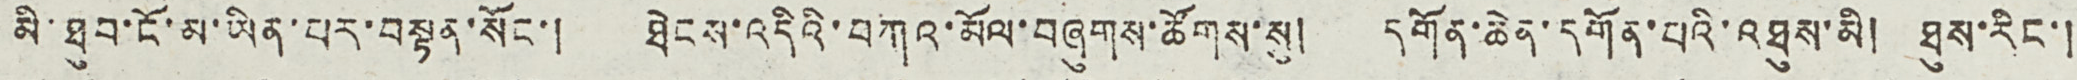མི་ཐུབ་ངོ་མ་ཡིན་པར་བསྟན་སོང་། ཐེངས་འདིའི་བཀའ་མོལ་བཞུགས་ཚོགས་སུ། དགོན་ཆེན་དགོན་པའི་འཐུས་མི། ཐུས་རིང་།
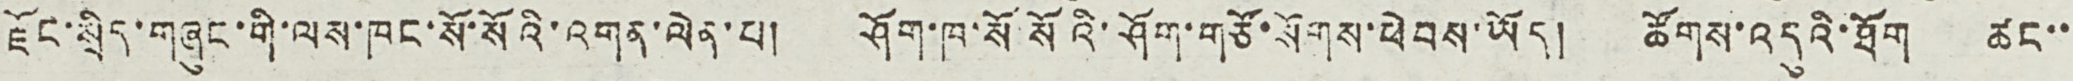རྫོང་སྲིད་གཞུང་གི་ལས་ཁང་སོ་སོའི་འགན་ལེན་པ། ཤོག་ཁ་སོ་སོའི་ཤོག་གཙོ་སོགས་ཕེབས་ཡོད། ཚོགས་འདུའི་ཐོག ཚང་་
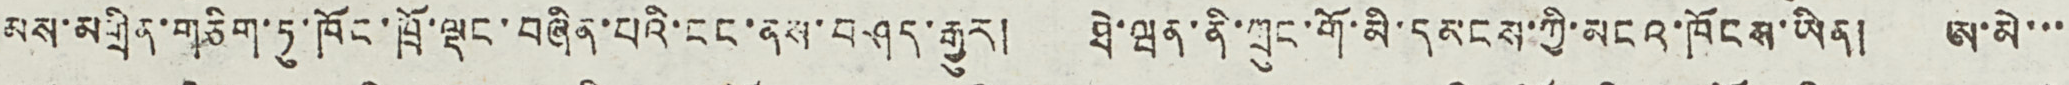མས་མགྲིན་གཅིག་ཏུ་ཁོང་ཁྲོ་ལྡང་བཞིན་པའི་ངང་ནས་བཤད་རྒྱུར། ཐེ་ཝན་ནི་ཀྲུང་གོ་མི་དམངས་ཀྱི་མངའ་ཁོངས་ཡིན། ཨ་མེ་་་
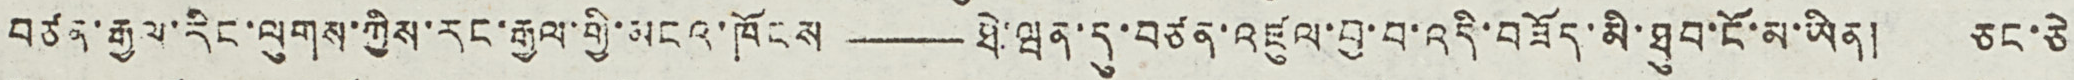བཙན་རྒྱལ་རིང་ལུགས་ཀྱིས་རང་རྒྱལ་གྱི་མངའ་ཁོངས——ཐེ་ཝན་དུ་བཙན་འཛུལ་བྱ་བ་འདི་བཟོད་མི་ཐུབ་ངོ་མ་ཡིན། ཅང་ཅེ་
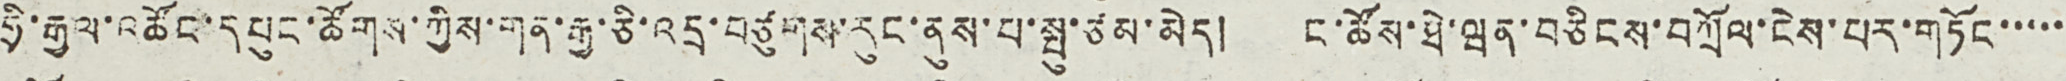ཧྲི་རྒྱལ་འཚོང་དཔུང་ཚོགས་ཀྱི་གན་རྒྱ་ཅི་འདྲ་བཙུགས་རུང་ནུས་པ་སྤུ་ཙམ་མེད། ང་ཚོས་ཐེ་ཝན་བཅིངས་བཀྲོལ་ངེས་པར་གཏོང་་་་་
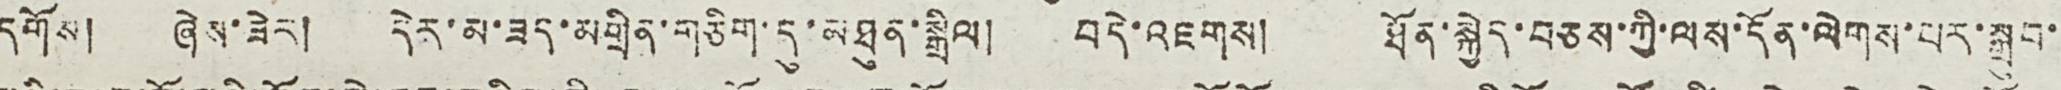དགོས། ཞེས་ཟེར། དེར་མ་ཟད་མགྲིན་གཅིག་དུ་མཐུན་སྒྲིལ། བདེ་འཇགས། ཐོན་སྐྱེད་བཅས་ཀྱི་ལས་དོན་ལེགས་པར་སྒྲུབ་
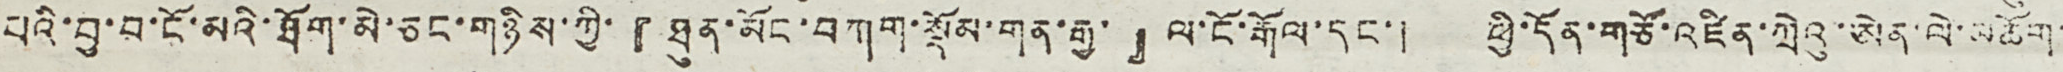པའི་བྱ་བ་ངོ་མའི་ཐོག་མེ་ཅང་གཉིས་ཀྱི་『ཐུན་མོང་བཀག་སྡོམ་གན་རྒྱ་』ལ་ངོ་རྒོལ་དང་། ཕྱི་དོན་གཙོ་འཛིན་ཀྲེའུ་ཨེན་ལེ་མཆོག་
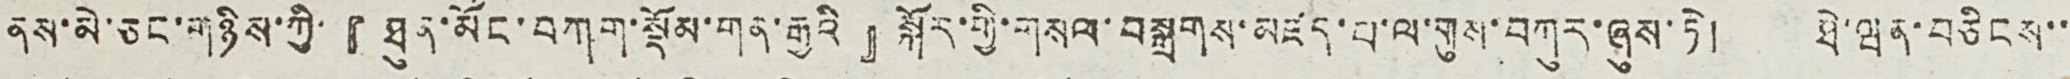ནས་མེ་ཅང་གཉིས་ཀྱི་『ཐུན་མོང་བཀག་སྡོམ་གན་རྒྱའི』སྐོར་གྱི་གསལ་བསྐྲགས་མཛད་པ་ལ་གུས་བཀུར་ཞུས་ཏེ། ཐེ་ཝན་བཅིངས་་
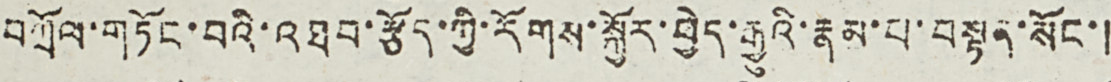བཀྲོལ་གཏོང་བའི་འཐབ་རྩོད་ཀྱི་རོགས་སྐྱོར་བྱེད་རྒྱུའི་རྣམ་པ་བསྟན་སོང་།
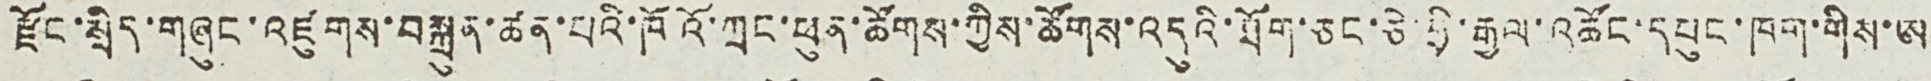རྫོང་སྲིད་གཞུང་འཛུགས་བསྐྲུན་ཚན་པའི་ཁོའོ་ཀྲང་ཕུན་ཚོགས་ཀྱིས་ཚོགས་འདུའི་ཐོག་ཅང་ཅེ་ཧྲི་རྒྱལ་འཚོང་དཔུང་ཁག་གིས་ཨ་
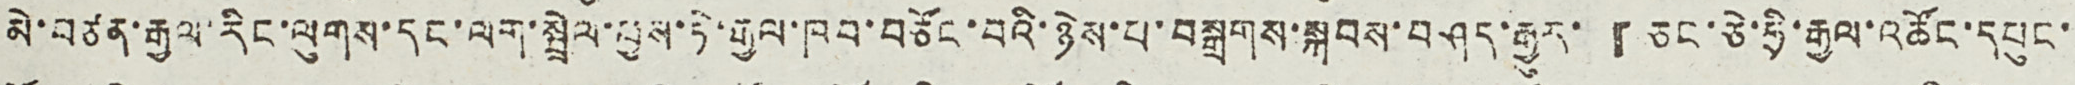མེ་བཙན་རྒྱལ་རིང་ལུགས་དང་ལག་སྦྲེལ་བྱས་ཏེ་རྒྱལ་ཁབ་བཙོང་བའི་ཉེས་པ་བསྒྲགས་སྐབས་བཤད་རྒྱུར་『ཅང་ཅེ་ཧྲི་རྒྱལ་འཚོང་དཔུང་
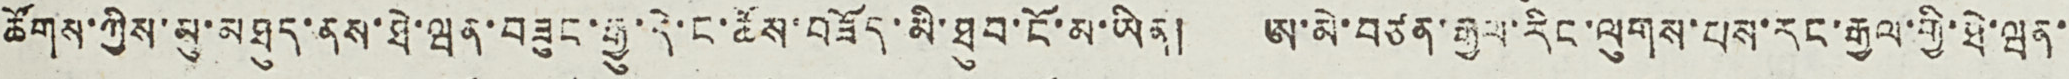ཚོགས་ཀྱིས་མུ་མཐུད་ནས་ཐེ་ཝན་བཟུང་རྒྱུ་དེ་ང་ཚོས་བཟོད་མི་ཐུབ་ངོ་མ་ཡིན། ཨ་མེ་བཙན་རྒྱལ་རིང་ལུགས་པས་རང་རྒྱལ་གྱི་ཐེ་ཝན་
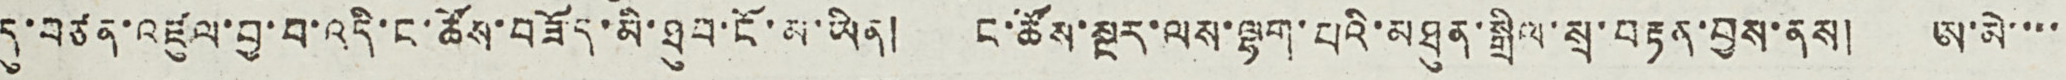དུ་བཙན་འཛུལ་བྱ་བ་འདི་ང་ཚོས་བཟོད་མི་ཐུབ་ངོ་མ་ཡིན། ང་ཚོས་སྔར་ལས་ལྷག་པའི་མཐུན་སྒྲིལ་སྲ་བརྟན་བྱས་ནས། ཨ་མེ་་་་
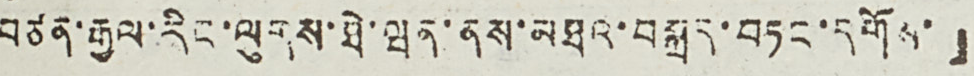བཙན་རྒྱལ་རིང་ལུགས་ཐེ་ཝན་ནས་མཐའ་བསྐྲད་བཏང་དགོས་』
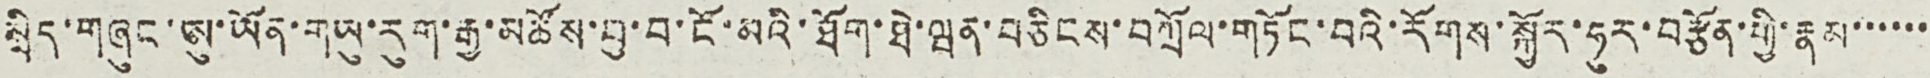སྲིད་གཞུང་ཨུ་ཡོན་གཡུ་རུག་རྒྱ་མཚོས་བྱ་བ་ངོ་མའི་ཐོག་ཐེ་ཝན་བཅིངས་བཀྲོལ་གཏོང་བའི་རོགས་སྐྱོར་ཧུར་བརྩོན་རྣམ་་་་་་
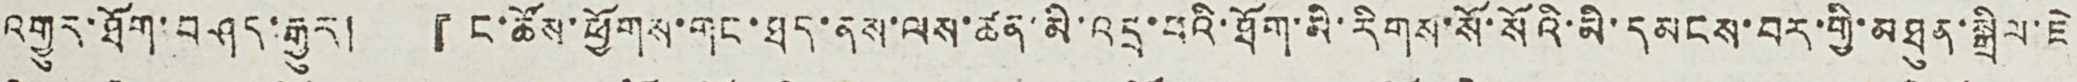འགྱུར་ཐོག་བཤད་རྒྱུར། 『ང་ཚོས་ཕྱོགས་གང་ཐད་ནས་ལས་ཚན་མི་འདྲ་བའི་ཐོག་མི་རིགས་སོ་སོའི་མི་དམངས་བར་གྱི་མཐུན་སྒྲིལ་ཇེ
